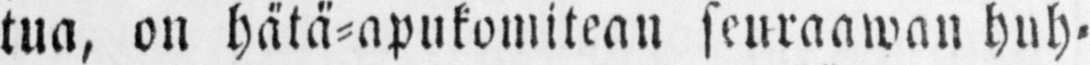tua, on hätä-apukomitean seuraawan huh-
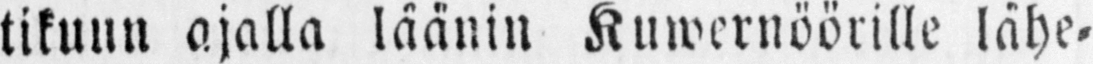tikuun ajalla läänin Kuwernöörille lähe-
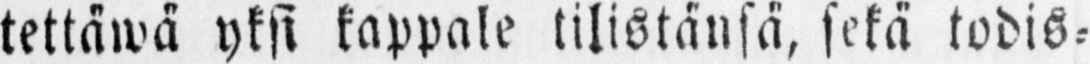tettäwä yksi kappale tilistänsä, sekä todis-
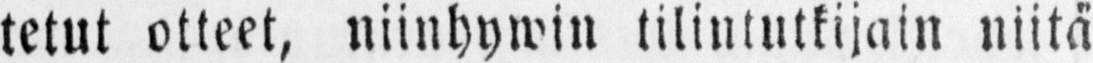tetut otteet, niinhywin tilintutkijain niitä
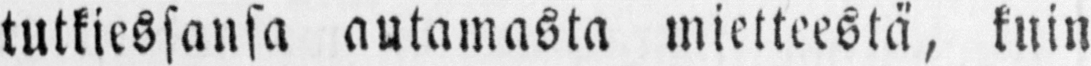tutkiessansa autamasta mietteestä, kuin
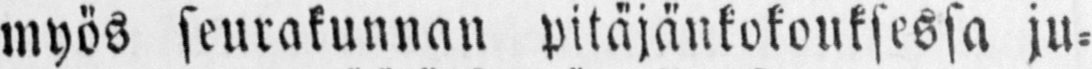myös seurakunnan pitäjänkokouksessa ju-
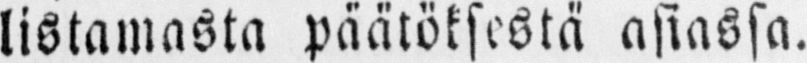listamasta päätöksestä asiassa.
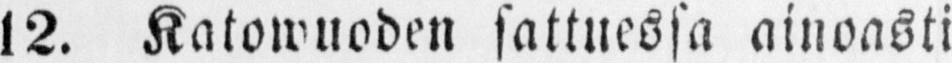§-12. Katowuoden sattuessa ainoasti
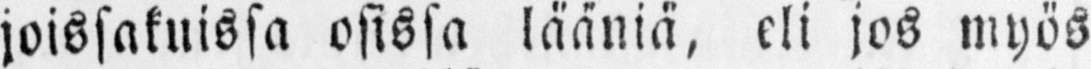joissakuissa osissa lääniä, eli jos myös
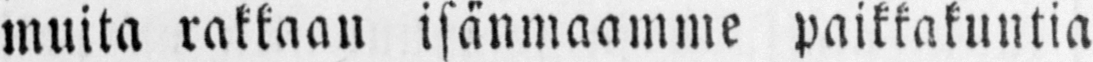muita rakkaan isänmaamme paikkakuntia
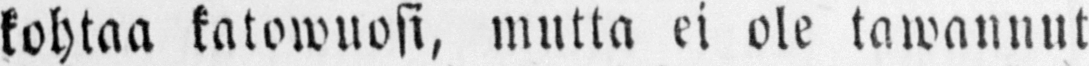kohtaa katowuosi, mutta ei ole tawannut
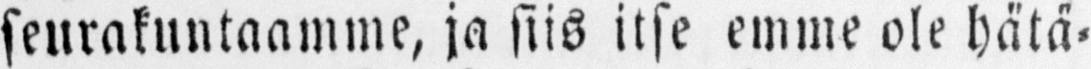seurakuntaamme, ja siis itse emme ole hätä-
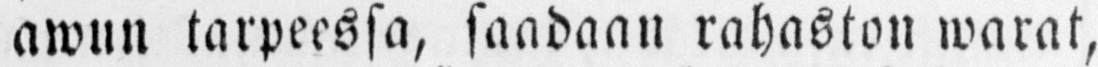awun tarpeessa, saadaan rahaston warat,
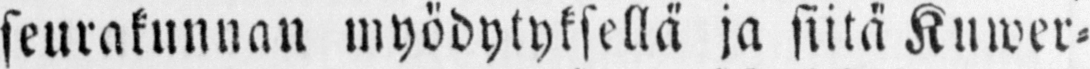seurakunnan myödytyksellä ja siitä Kuwer-
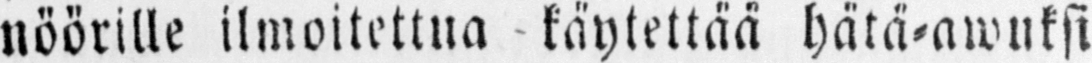nöörille ilmoitettua käytettää hätä-awuksi
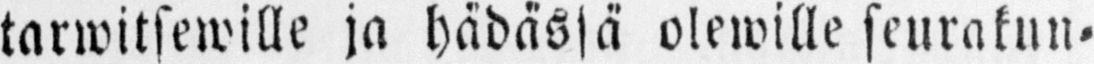tarwitsewille ja hädässä olewille seurakun-
